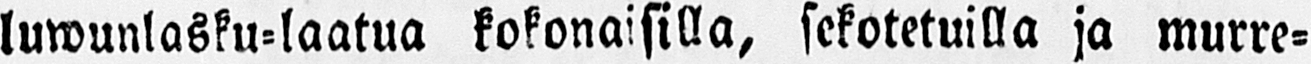luwunlasku-laatua kokonaisilla, sekotetuilla ja murre-
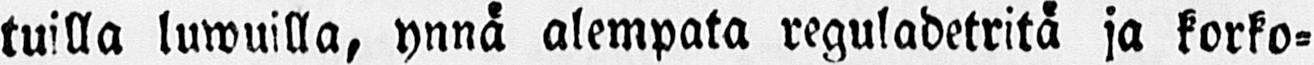tuilla luwuilla, ynnä alempata reguladetritä ja korko-
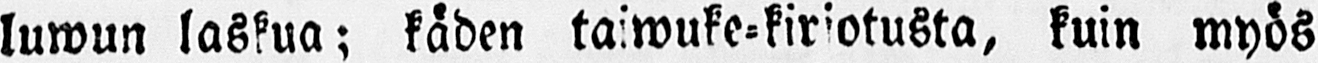luwun laskua; käden taiwuke-kiriotusta, kuin myös
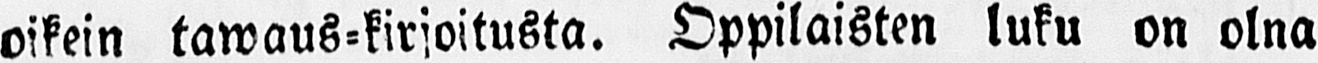oikein tawaus-kirjoitusta. Oppilaisten luku on olna
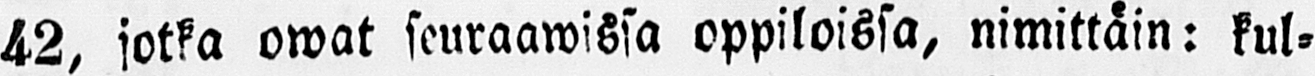42, jotka owat seuraawissa oppiloissa, nimittäin: kul-
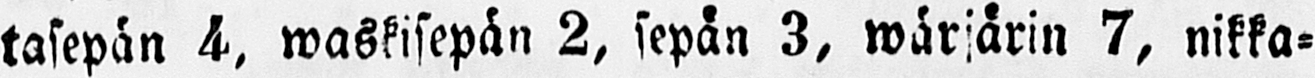tasepän 4, waskisepän 2, sepän 3, wärjärin 7, nikka-
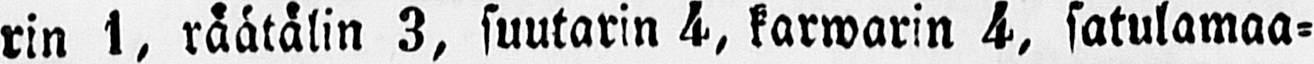rin 1, räätälin 3, suutarin 4, karwarin 4, satulamaa-
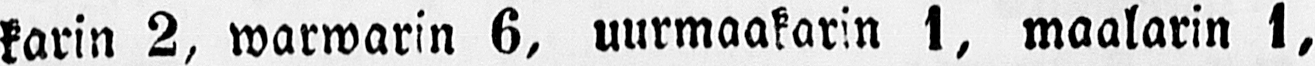karin 2, warwarin 6, uurmaakarin 1, maalarin 1,
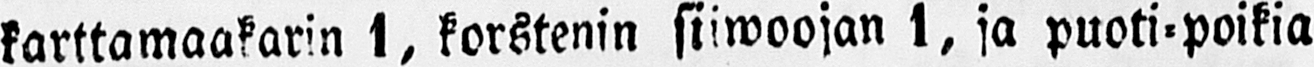karttamaakarin 1, korstenin siiwoojan 1, ja puoti-poikia
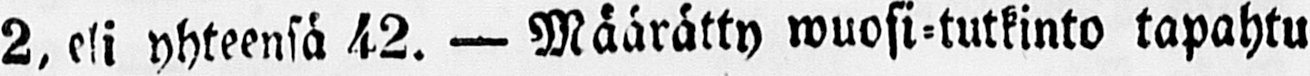2, eli yhteensä 42. — Määrätty wuosi-tutkinto tapahtu
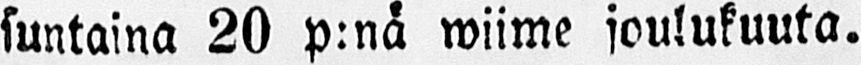suntaina 20 p:nä wiime joulukuuta.
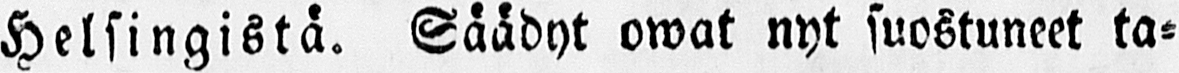Helsingistä. Säädyt owat nyt suostuneet ta-
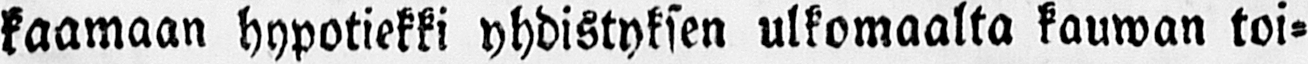kaamaan hypotiekki yhdistyksen ulkomaalta kauwan toi-
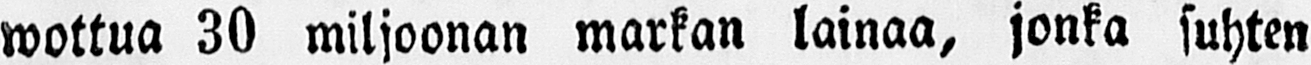wottua 30 miljoonan markan lainaa, jonka suhten
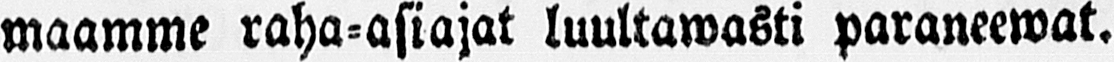maamme raha-asiajat luultawasti paraneewat.
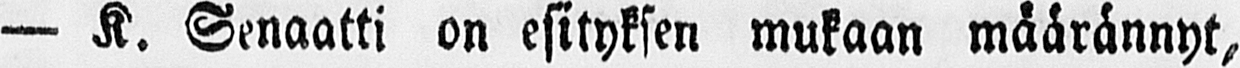— K. Senaatti on esityksen mukaan määrännyt,
